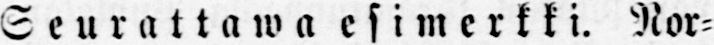Seurattawa esimerkki. Nor-
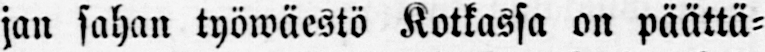jan sahan työwäestö Kotkassa on päättä-
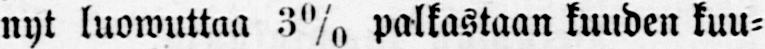nyt luowuttaa 3% palkastaan kuuden kuu-
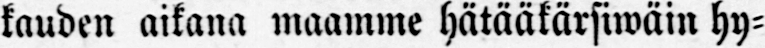kauden aikana maamme hätääkärsiwäin hy-
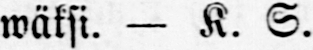wäksi. — K. S.
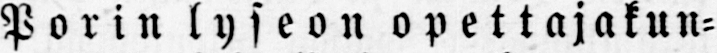Porin lyseon opettajakun-
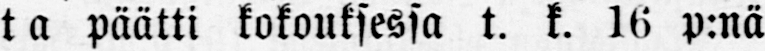ta päätti kokouksessa t. k. 16 p:nä
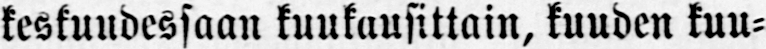keskuudessaan kuukausittain, kuuden kuu-
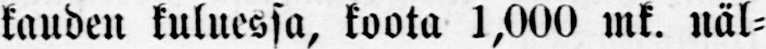kauden kuluessa, koota 1,000 mk. näl-
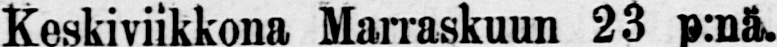Keskiviikkona Marraskuun 23 p:nä.
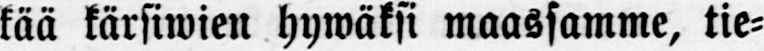kää kärsiwien hywäksi maassamme, tie-
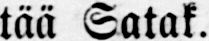tää Satak.
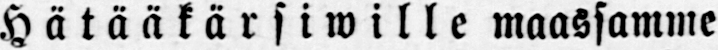Hätääkärsiwille maassamme
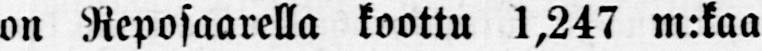on Reposaarella koottu 1,247 m:kaa
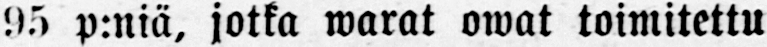95 p:niä, jotka warat owat toimitettu
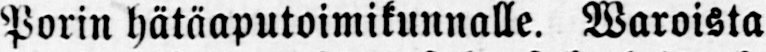Porin hätäaputoimikunnalle. Waroista
